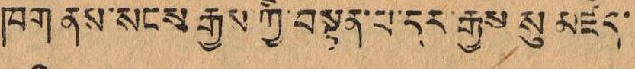ཁག ནས་སངས་རྒྱས ཀྱི་བསྟན་པ་དར་རྒྱས སུ་མཛད་
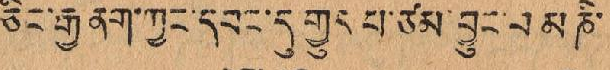ཅིང་རྒྱ ནག་ཀྱང་དབང་དུ་གྱུར་པ་ཙམ་བྱུང་བ་མ་ཎི་
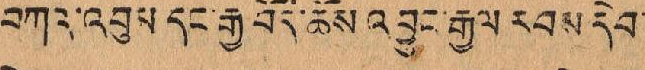བཀའ་འབུམ དང་རྒྱ བོད་ཆོས འབྱུང་རྒྱལ་རབས དེབ་
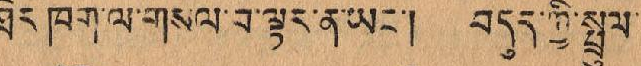ཐེར ཁག་ལ་གསལ་བ་ལྟར་ན་ཡང་། བདུད་ཀྱི་སྤུལ་
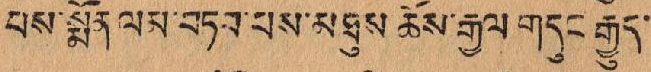པས་སྨོན་ལམ་བཏབ་པས་མཐུས ཆོས་རྒྱས་གདུང་རྒྱུད་
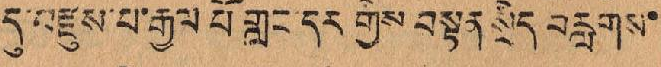དུ་བརྫུས་པ་རྒྱལ་པོ གླང་དར་གྱིས་བསྟན་སྲིད བབླགས་
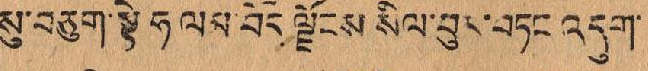སུ་བཅུག་སྟེ ཧ ལམ་བོད ལྗོངས སིལ་བུར་བཏང་འདུག་
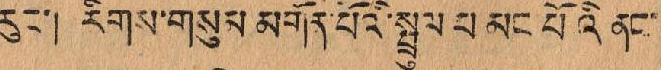རུང་། རིགས་གསུམ མགོན་པོའི་སྤྲུལ་པ་མང པའི ནང་
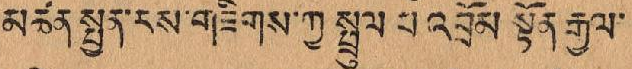མཚན སྤྱན་རས་གཟིགས་ཀྱ སྤྲུལ པ འབྲོམ སྟོན རྒྱལ་
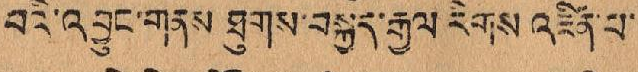བའི་འབྱུང་གནས་ཐུགས་བསྐྱད་རྒྱལ་རིགས འཛིན་པ་
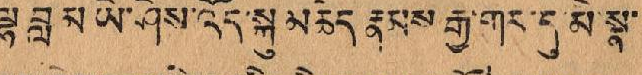ལྷ བླ ་མ ཡེ་ཤེས་འོད་སྐུ་མཆེད རྣམས་རྒྱ་གར་དུ མི་སྣ་
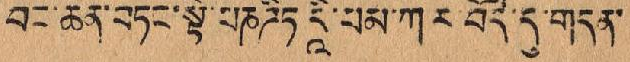བང་ཆེན་བཏང་སྟེ་པཎཌིཏ དཱི་པམ་ཀ ར བོད་དུ་གདན་
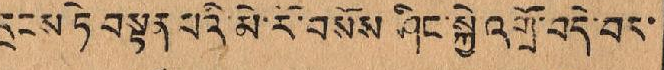དྲངས ཏེ བསྟན པའི མེ་རོ་བསོས ཤིང་སྐྱེ འགྲོ་བདེ་བར་
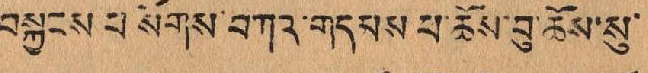བསྐྱངས པ སོགས་བཀའ་གདམས པ་ཆོས་བུ་ཆོས་སུ་
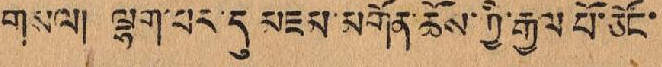གསལ། ལྷག་པར་དུ མཇལ་མགོན་ཆོས་ཀྱི་རྒྱལ པོ་ཅོང་
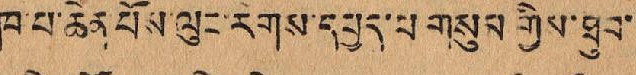ཁ་པ་ཆེན་པོས་ལུང་རིགས་དཔྱད་པ་གསུམ་གྱིས་ཐུབ་
